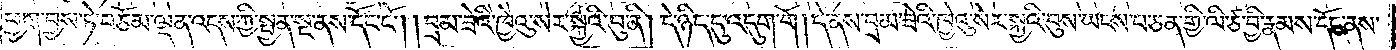ཕྱག་བྱས་ཏེ་བཅོམ་ལྡན་འདས་ཀྱིས་སྤྱན་སྔ་ནས་དོང་ངོ༌། །བྲམ་ཟེའི་ཁྱེའུ་སེར་སྐྱའི་བུ་ནི། དེ་ཉིད་དུ་འདུག་གོ །དེ་ནས་བྲམ་ཟེའི་ཁྱེའུ་སེར་སྐྱའི་བུས་ཡངས་པ་ཅན་གྱི་ལི་ཙ་བྱི་རྣམས་དོང་ནས་
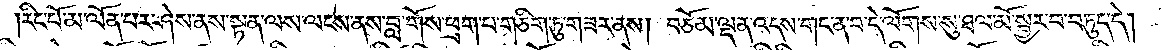རིང་པོ་མ་ལོན་པར་ཤེས་ནས་སྟན་ལས་ལངས་ནས་བླ་གོས་ཕྲག་པ་གཅིག་ཏུ་གཟར་ནས། བཅོམ་ལྡན་འདས་གང་ན་བདེ་ལོགས་སུ་ཐལ་མོ་སྦྱར་བ་བཏུད་དེ།
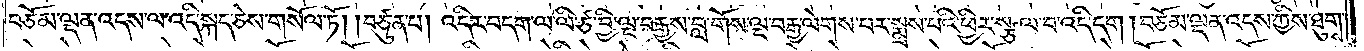བཅོམ་ལྡན་འདས་ལ་འདི་སྐད་ཅེས་གསོལ་ཏོ། །བཙུན་པ། འདིར་བདག་ལ་ལི་ཙ་བྱི་ལྔ་བརྒྱས་བླ་གོས་ལྔ་བརྒྱ་ལེགས་པར་སྨྲས་པའི་ཕྱིར་སྩལ་བ་འདི་དག །བཅོམ་ལྡན་འདས་ཀྱིས་ཐུགས་
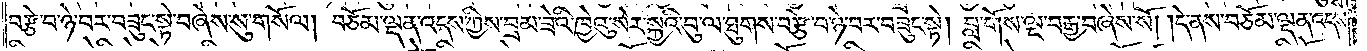བརྩེ་བ་ཉེ་བར་བཟུང་སྟེ་བཞེས་སུ་གསོལ། བཅོམ་ལྡན་འདས་ཀྱིས་བྲམ་ཟེའི་ཁྱེའུ་སེར་སྐྱའི་བུ་ལ་ཐུགས་བརྩེ་བ་ཉེ་བར་བཟུང་སྟེ། བླ་གོས་ལྔ་བརྒྱ་བཞེས་སོ། །དེ་ནས་བཅོམ་ལྡན་འདས་
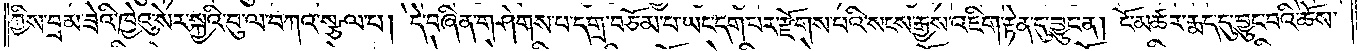ཀྱིས་བྲམ་ཟེའི་ཁྱེའུ་སེར་སྐྱའི་བུ་ལ་བཀའ་སྩལ་པ། དེ་བཞིན་གཤེགས་པ་དགྲ་བཅོམ་པ་ཡང་དག་པར་རྫོགས་པའི་སངས་རྒྱས་འཇིག་རྟེན་དུ་བྱུང་ན། ངོ་མཚར་རྨད་དུ་བྱུང་བའི་ཆོས་
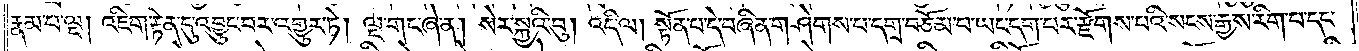རྣམ་པ་ལྔ། འཇིག་རྟེན་དུ་འབྱུང་བར་འགྱུར་ཏེ། ལྔ་གང་ཞེ་ན། སེར་སྐྱའི་བུ། འདི་ལ། སྟོན་པ་དེ་བཞིན་གཤེགས་པ་དགྲ་བཅོམ་པ་ལ་ཡང་དག་པར་རྫོགས་པའི་སངས་རྒྱས་རིག་པ་དང་
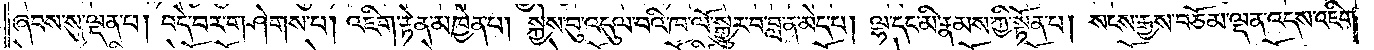ཞབས་སུ་ལྡན་པ། བདེ་བར་གཤེགས་པ། འཇིག་རྟེན་མཁྱེན་པ། སྐྱེས་བུ་འདུལ་བའི་ཁ་ལོ་སྒྱུར་བ་བླ་ན་མེད་པ། ལྷ་དང་མི་རྣམས་ཀྱི་སྟོན་པ། སངས་རྒྱས་བཅོམ་ལྡན་འདས་འཇིག་
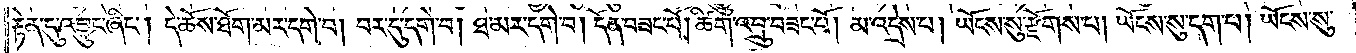རྟེན་དུ་འབྱུང་ཞིང༌། དེ་ཆོས་ཐོག་མར་དགེ་བ། བར་དུ་དགེ་བ། ཐ་མར་དགེ་བ། དོན་བཟང་པོ། ཚིག་འབྲུ་བཟང་པོ། མ་འདྲེས་པ། ཡོངས་སུ་རྫོགས་པ། ཡོངས་སུ་དག་པ། ཡོངས་སུ་
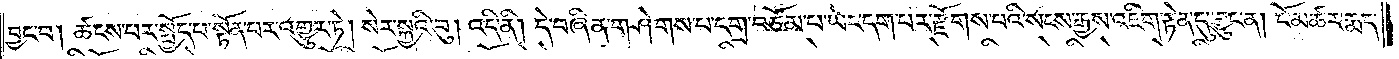བྱང་བ། ཚངས་པར་སྤྱོད་པ་སྟོན་པར་འགྱུར་ཏེ། སེར་སྐྱའི་བུ། འདི་ནི། དེ་བཞིན་གཤེགས་པ་དགྲ་བཅོམ་པ་ཡང་དག་པར་རྫོགས་པའི་སངས་རྒྱས་འཇིག་རྟེན་དུ་བྱུང་ན། ངོ་མཚར་རྨད་
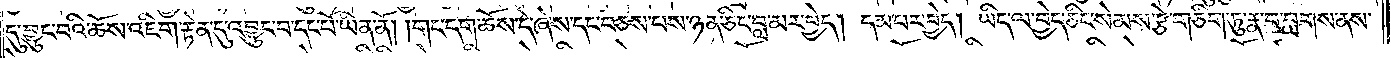དུ་བྱུང་བའི་ཆོས་འཇིག་རྟེན་དུ་འབྱུང་བ་དང་པོ་ཡིན་ནོ། །གང་དག་ཆོས་དེ་ཞེས་དང་བཅས་པས་ཉན་ཅིང་བླ་མར་བྱེད། དམ་པར་བྱེད། ཡིད་ལ་བྱེད་ཅིང་སེམས་རྩེ་གཅིག་ཏུ་རྣ་བ་བླགས་ནས་
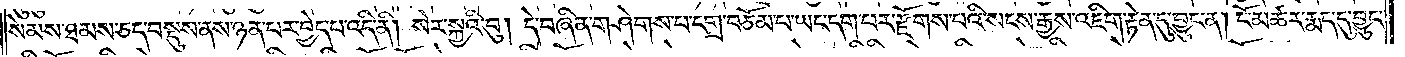སེམས་ཐམས་ཅད་བསྡུས་ནས་ཉན་པར་བྱེད་པ་འདི་ནི། སེར་སྐྱའི་བུ། དེ་བཞིན་གཤེགས་པ་དགྲ་བཅོམ་པ་ཡང་དག་པར་རྫོགས་པའི་སངས་རྒྱས་འཇིག་རྟེན་དུ་བྱུང་ན། ངོ་མཚར་རྨད་དུ་བྱུང་
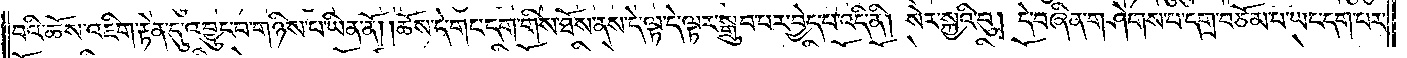བའི་ཆོས་འཇིག་རྟེན་དུ་འབྱུང་བ་གཉིས་པ་ཡིན་ནོ། །ཆོས་དེ་གང་དག་གིས་ཐོས་ནས་དེ་ལྟ་དེ་ལྟར་སྒྲུབ་པར་བྱེད་པ་འདི་ནི། སེར་སྐྱའི་བུ། དེ་བཞིན་གཤེགས་པ་དགྲ་བཅོམ་པ་ཡང་དག་པར་
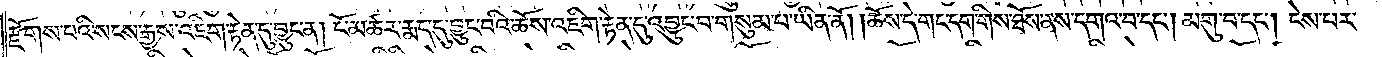རྫོགས་པའི་སངས་རྒྱས་འཇིག་རྟེན་དུ་བྱུང་ན། ངོ་མཚར་རྨད་དུ་བྱུང་བའི་ཆོས་འཇིག་རྟེན་དུ་འབྱུང་བ་གསུམ་པ་ཡིན་ནོ། །ཆོས་དེ་གང་དག་གིས་ཐོས་ནས་དགའ་བ་དང༌། མགུ་བ་དང༌། ངེས་པར་
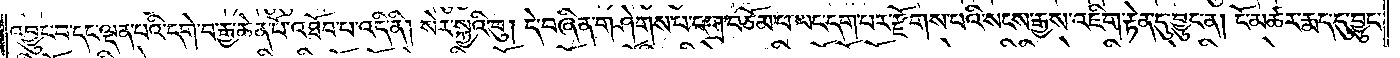འབྱུང་བ་དང་ལྡན་པའི་དགེ་བ་རྒྱ་ཆེན་པོ་འཐོབ་པ་འདི་ནི། སེར་སྐྱའི་བུ། དེ་བཞིན་གཤེགས་པ་དགྲ་བཅོམ་པ་ཡང་དག་པར་རྫོགས་པའི་སངས་རྒྱས་འཇིག་རྟེན་དུ་བྱུང་ན། ངོ་མཚར་རྨད་དུ་བྱུང་
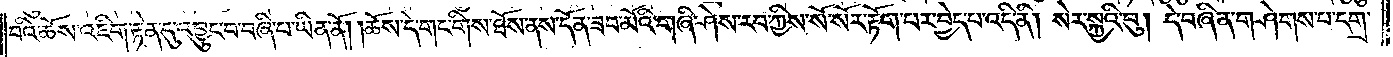བའི་ཆོས་འཇིག་རྟེན་དུ་འབྱུང་བ་བཞི་པ་ཡིན་ནོ། །ཆོས་དེ་གང་གིས་ཐོས་ནས་དོན་ཟབ་མོའི་གཞི་ཤེས་རབ་ཀྱིས་སོ་སོར་རྟོག་པར་བྱེད་པ་འདི་ནི། སེར་སྐྱའི་བུ། དེ་བཞིན་གཤེགས་པ་དགྲ་
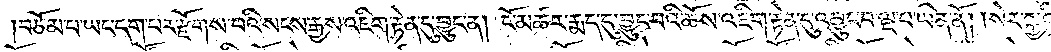བཅོམ་པ་ཡང་དག་པར་རྫོགས་པའི་སངས་རྒྱས་འཇིག་རྟེན་དུ་བྱུང་ན། ངོ་མཚར་རྨད་དུ་བྱུང་བའི་ཆོས་འཇིག་རྟེན་དུ་འབྱུང་བ་ལྔ་པ་ཡིན་ནོ། །སེར་སྐྱའི་
